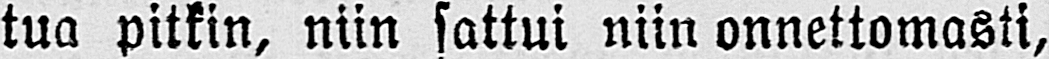tua pitkin, niin sattui niin onnettomasti,
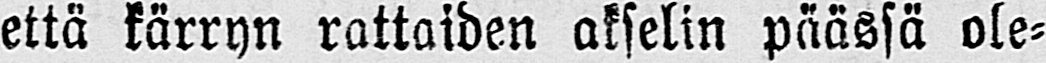että kärryn rattaiden akselin päässä ole-
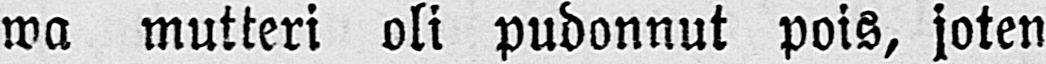wa mutteri oli pudonnut pois, joten
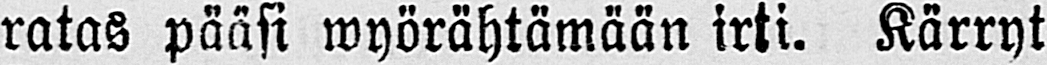ratas pääsi wyörähtämään irti. Kärryt
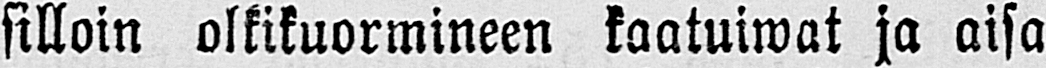silloin olkikuormineen kaatuiwat ja aisa
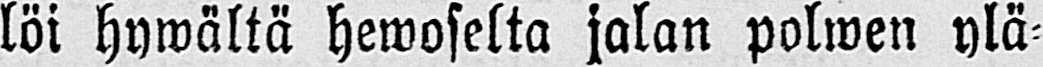löi hywältä Hewoselta jalan polwen ylä-
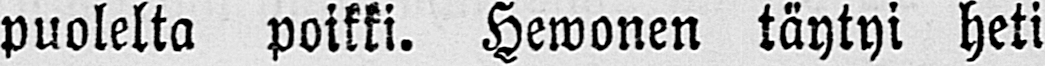puolelta poikki. Hewonen täytyi heti
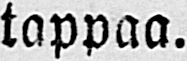tappaa.
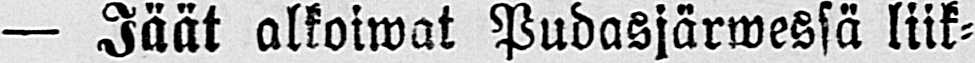— Jäät alkoiwat Pudasjärwessä liik-
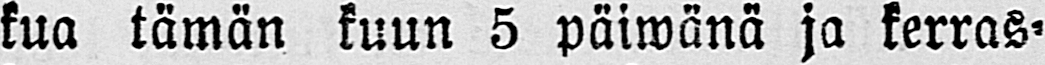kua tämän kuun 5 päiwänä ja kerras-
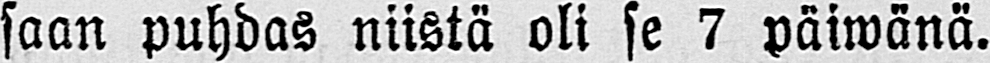saan puhdas niistä oli se 7 päiwanä.
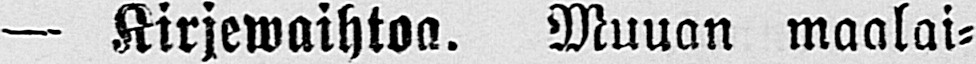— Kirjewaihtoa. Muuan maalai-
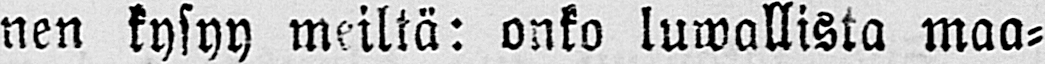nen kysyy meiltä: onko luwallista maa-
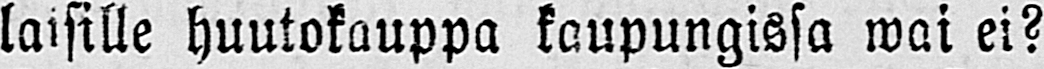laisille huutokauppa kaupungissa wai ei?
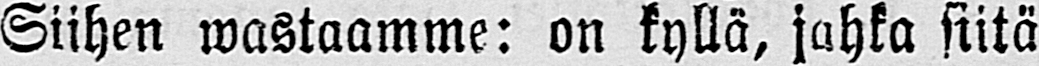Siihen wastaamme: on kyllä, jahka siitä
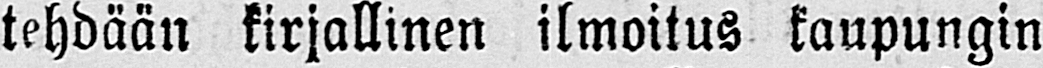tehdään kirjallinen ilmoitus kaupungin
